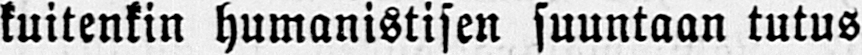kuitenkin humanistisen suuntaan tutus-
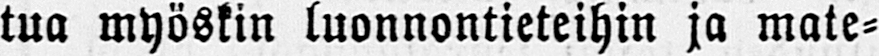tua myöskin luonnontieteihin ja mate-
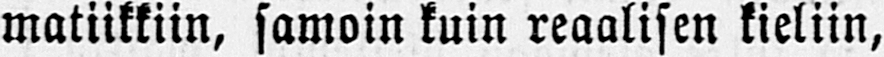matiikkiin, samoin kuin reaalisen kieliin,
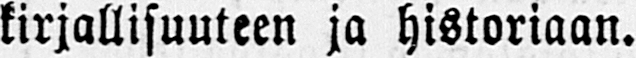kirjallisuuteen ja historiaan.
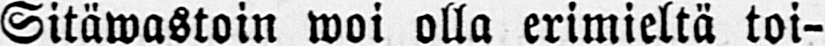Sitäwastoin woi olla erimieltä toi-
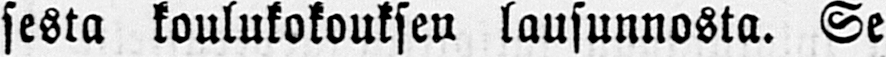sesta koulukokouksen lausunnosta. Se
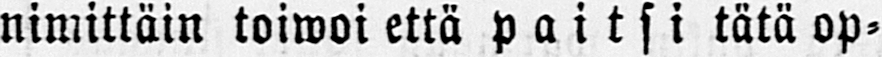nimittäin toiwoi että paitsi tätä op-
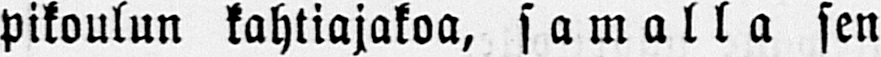pikoulun kahtiajakoa, samalla sen
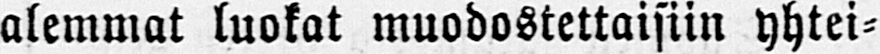alemmat luokat muodostettaisiin yhtei-
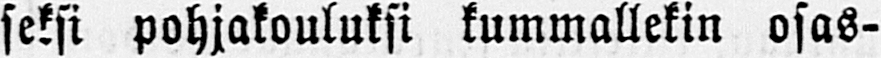seksi pohjakouluksi kummallekin osas-
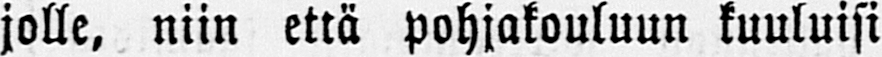jolle, niin että pohjakouluun kuuluisi
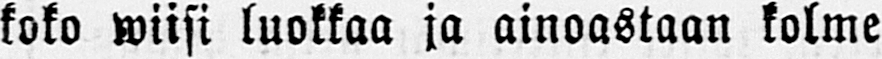koko wiisi luokkaa ja ainoastaan kolme
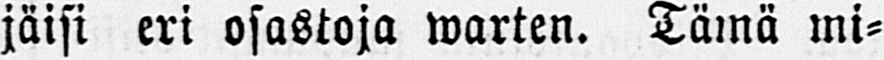jäisi eri osastoja warten. Tämä mi-
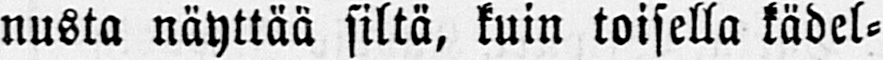nusta näyttää siltä, kuin toisella kädel-
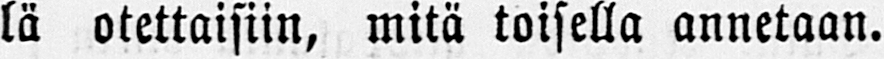lä otettaisiin, mitä toisella annetaan.
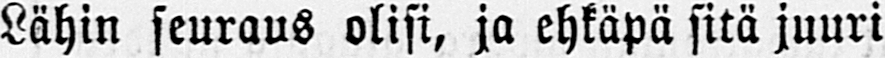Lähin seuraus olisi, ja ehkäpä sitä juuri
